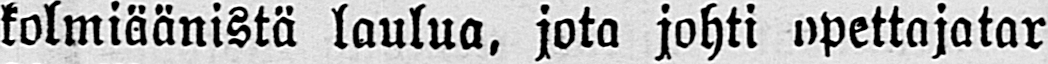kolmiäänistä laulua, jota johti opettajatar
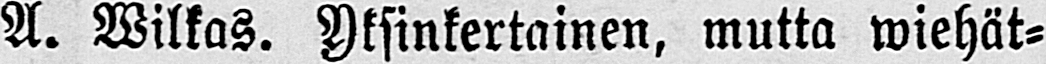A. Wilkas. Yksinkertainen, mutta wiehät-
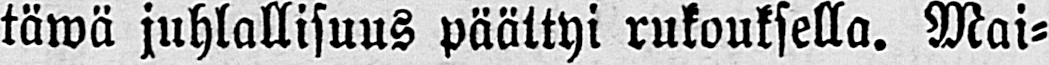täwä juhlallisuus päättyi rukouksella. Mai-
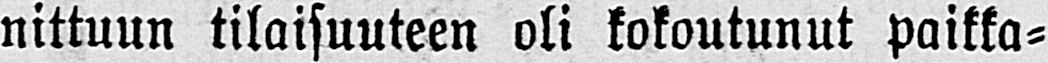nittuun tilaisuuteen oli kokoutunut paikka-
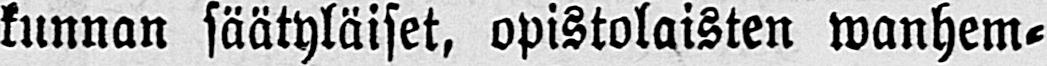kunnan säätyläiset, opistolaisten wanhem-
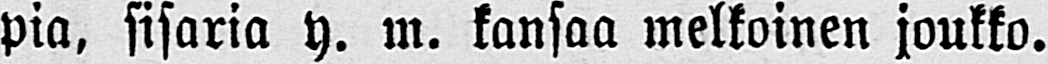pia, sisaria y. m. kansaa melkoinen joukko.
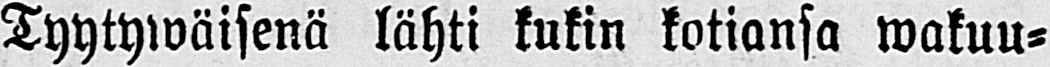Tyytywäisenä lähti kukin kotiansa wakuu-
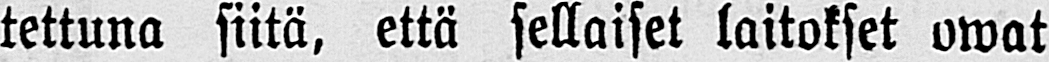tettuna siitä, että sellaiset laitokset owat
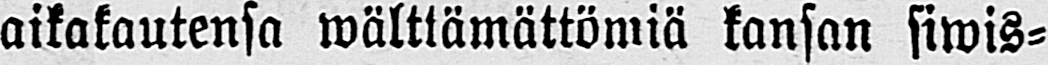aikakautensa wälttämättömiä kansan siwis-
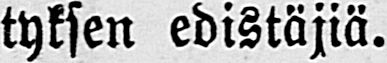tyksen edistäjiä.
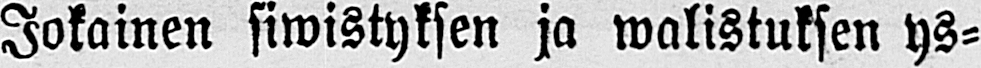Jokainen siwistyksen ja walistuksen ys-
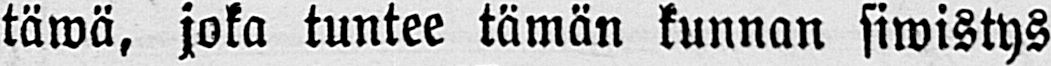täwä, joka tuntee tämän kunnan siwistys
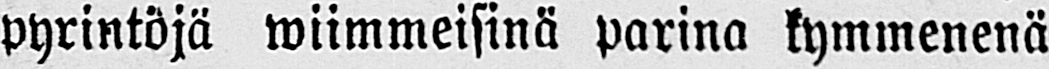pyrintöjä wiimmeisinä parina kymmenenä
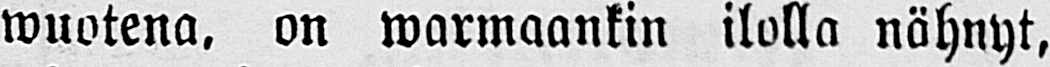wuotena, on warmaankin ilolla nähnyt,
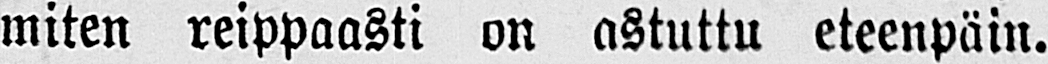miten reippaasti on astuttu eteenpäin.
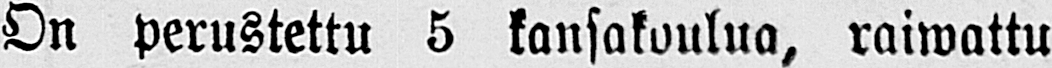On perustettu 5 kansakoulua, raiwattu
